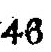46
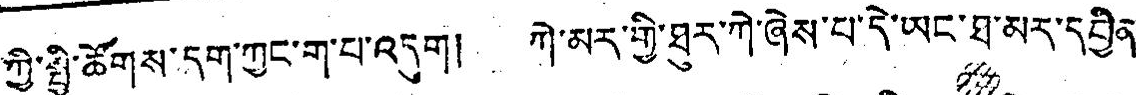ཀྱི་སྤྱི་ཚོགས་དག་ཀྱང་ག་པ་འདུག། ཀེ་མར་གྱི་ཐུར་ཀེ་ཞེས་པ་དེ་ཡང་ཐ་མར་དབྱིན་
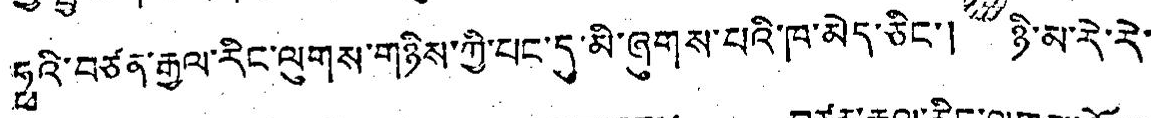ཧྥའི་བཙན་རྒྱལ་རིང་ལུགས་གཉིས་ཀྱི་པང་དུ་མི་ཞུགས་པའི་ཁ་མེད་ཅིང་། ཉི་མ་རེ་རེ་
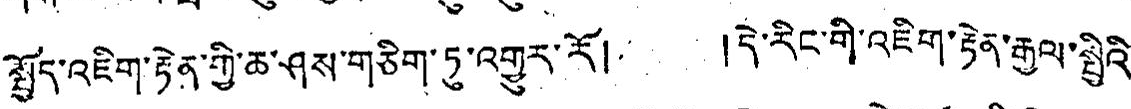སྤྱོད་འཇིག་རྟེན་གྱི་ཆ་ཤས་གཅིག་ཏུ་འགྱུར་རོ། །དེ་རིང་གི་འཇིག་རྟེན་རྒྱལ་སྤྱིའི་
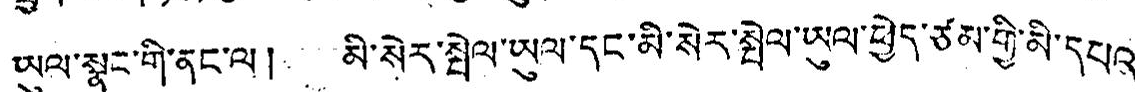ཡུལ་སྣང་གི་ནང་ལ། མི་སེར་སྤེལ་ཡུལ་དང་མི་སེར་སྤེལ་ཡུལ་ཕྱེད་ཙམ་གྱི་མི་དཔའ་
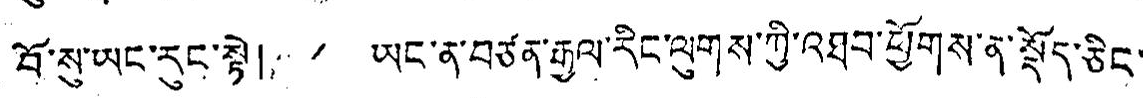བོ་སུ་ཡང་རུང་སྟེ། ཡང་ན་བཙན་རྒྱལ་རིང་ལུགས་ཀྱི་འཐབ་ཕྱོགས་ན་སྡོད་ཅིང་།
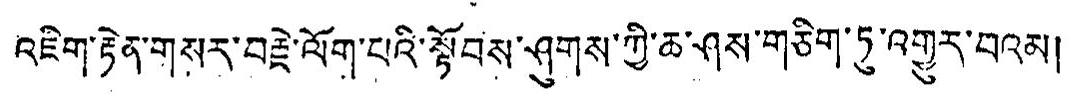འཇིག་རྟེན་གསར་བརྗེ་ལོག་པའི་སྟོབས་ཤུགས་ཀྱི་ཆ་ཤས་གཅིག་ཏུ་འགྱུར་བའམ།
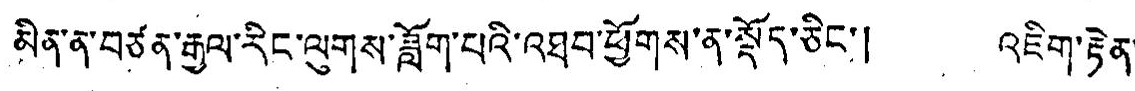མིན་ན་བཙན་རྒྱལ་རིང་ལུགས་ཟློག་པའི་འཐབ་ཕྱོགས་ན་སྟོད་ཅིང་། འཇིག་རྟེན་
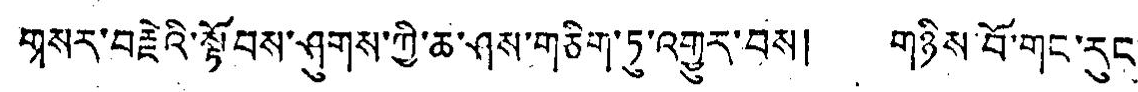གསར་བརྗེའི་སྟོབས་ཤུགས་ཀྱི་ཆ་ཤས་གཅིག་ཏུ་འགྱུར་བས། གཉིས་བོ་གང་རུང་
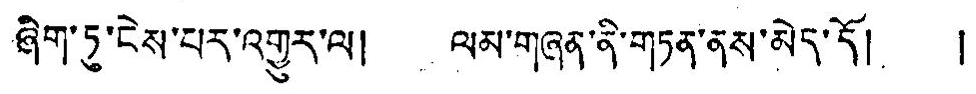ཞིག་ཏུ་ངེས་པར་འགྱུར་ལ། ལམ་གཞན་ནི་གཏན་ནས་མེད་དོ། །
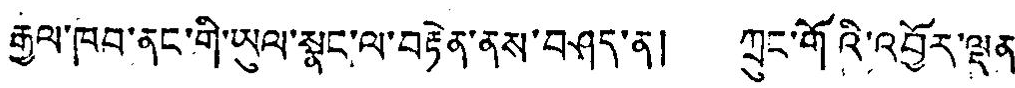རྒྱལ་ཁབ་ནང་གི་ཡུལ་སྣང་ལ་བརྟེན་ནས་བཤད་ན། ཀྲུང་གོའི་འབྱོར་ལྡན་
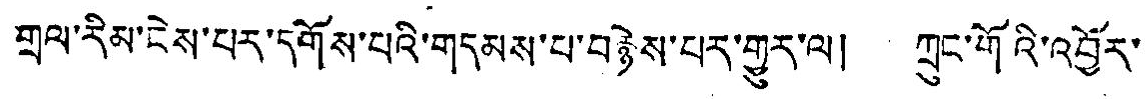གྲལ་རིམ་ངེས་པར་དགོས་པའི་གདམས་པ་བརྙེས་པར་གྱུར་ལ། ཀྲུང་གོའི་འབྱོར་
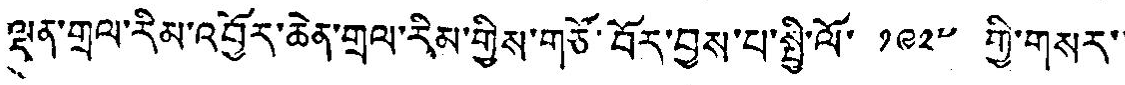ལྡན་གྲལ་རིམ་འབྱོར་ཆེན་གྲལ་རིམ་གྱིས་གཙོ་བོར་བྱས་པ་སྤྱི་ལོ་ ༡༩༢༧ གྱི་གསར་་
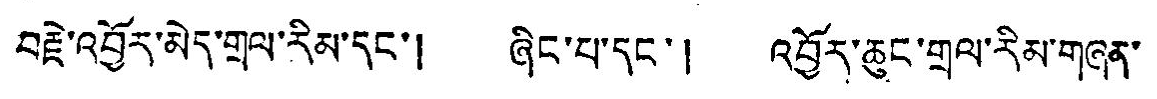བརྗེ་འབྱོར་མེད་གྲལ་རིམ་དང་། ཞིང་པ་དང་། འབྱོར་ཆུང་གྲལ་རིམ་གཞན་
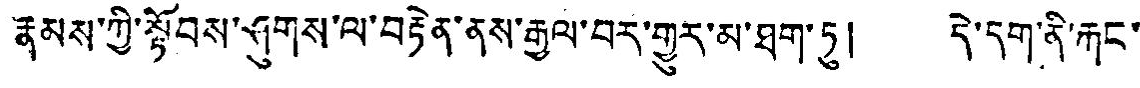རྣམས་ཀྱི་སྟོབས་ཤུགས་ལ་བརྟེན་ནས་རྒྱལ་བར་གྱུར་མ་ཐག་ཏུ། དེ་དག་ནི་རྐང་
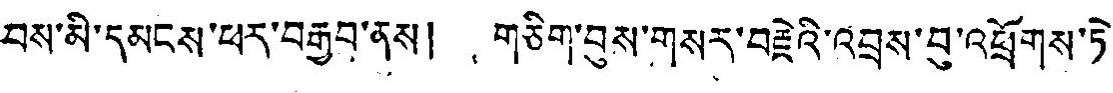བས་མི་དམངས་ཕར་བརྒྱབ་ནས། གཅིག་བུས་གསར་བརྗེའི་འབྲས་བུ་འཕྲོགས་ཏེ་
